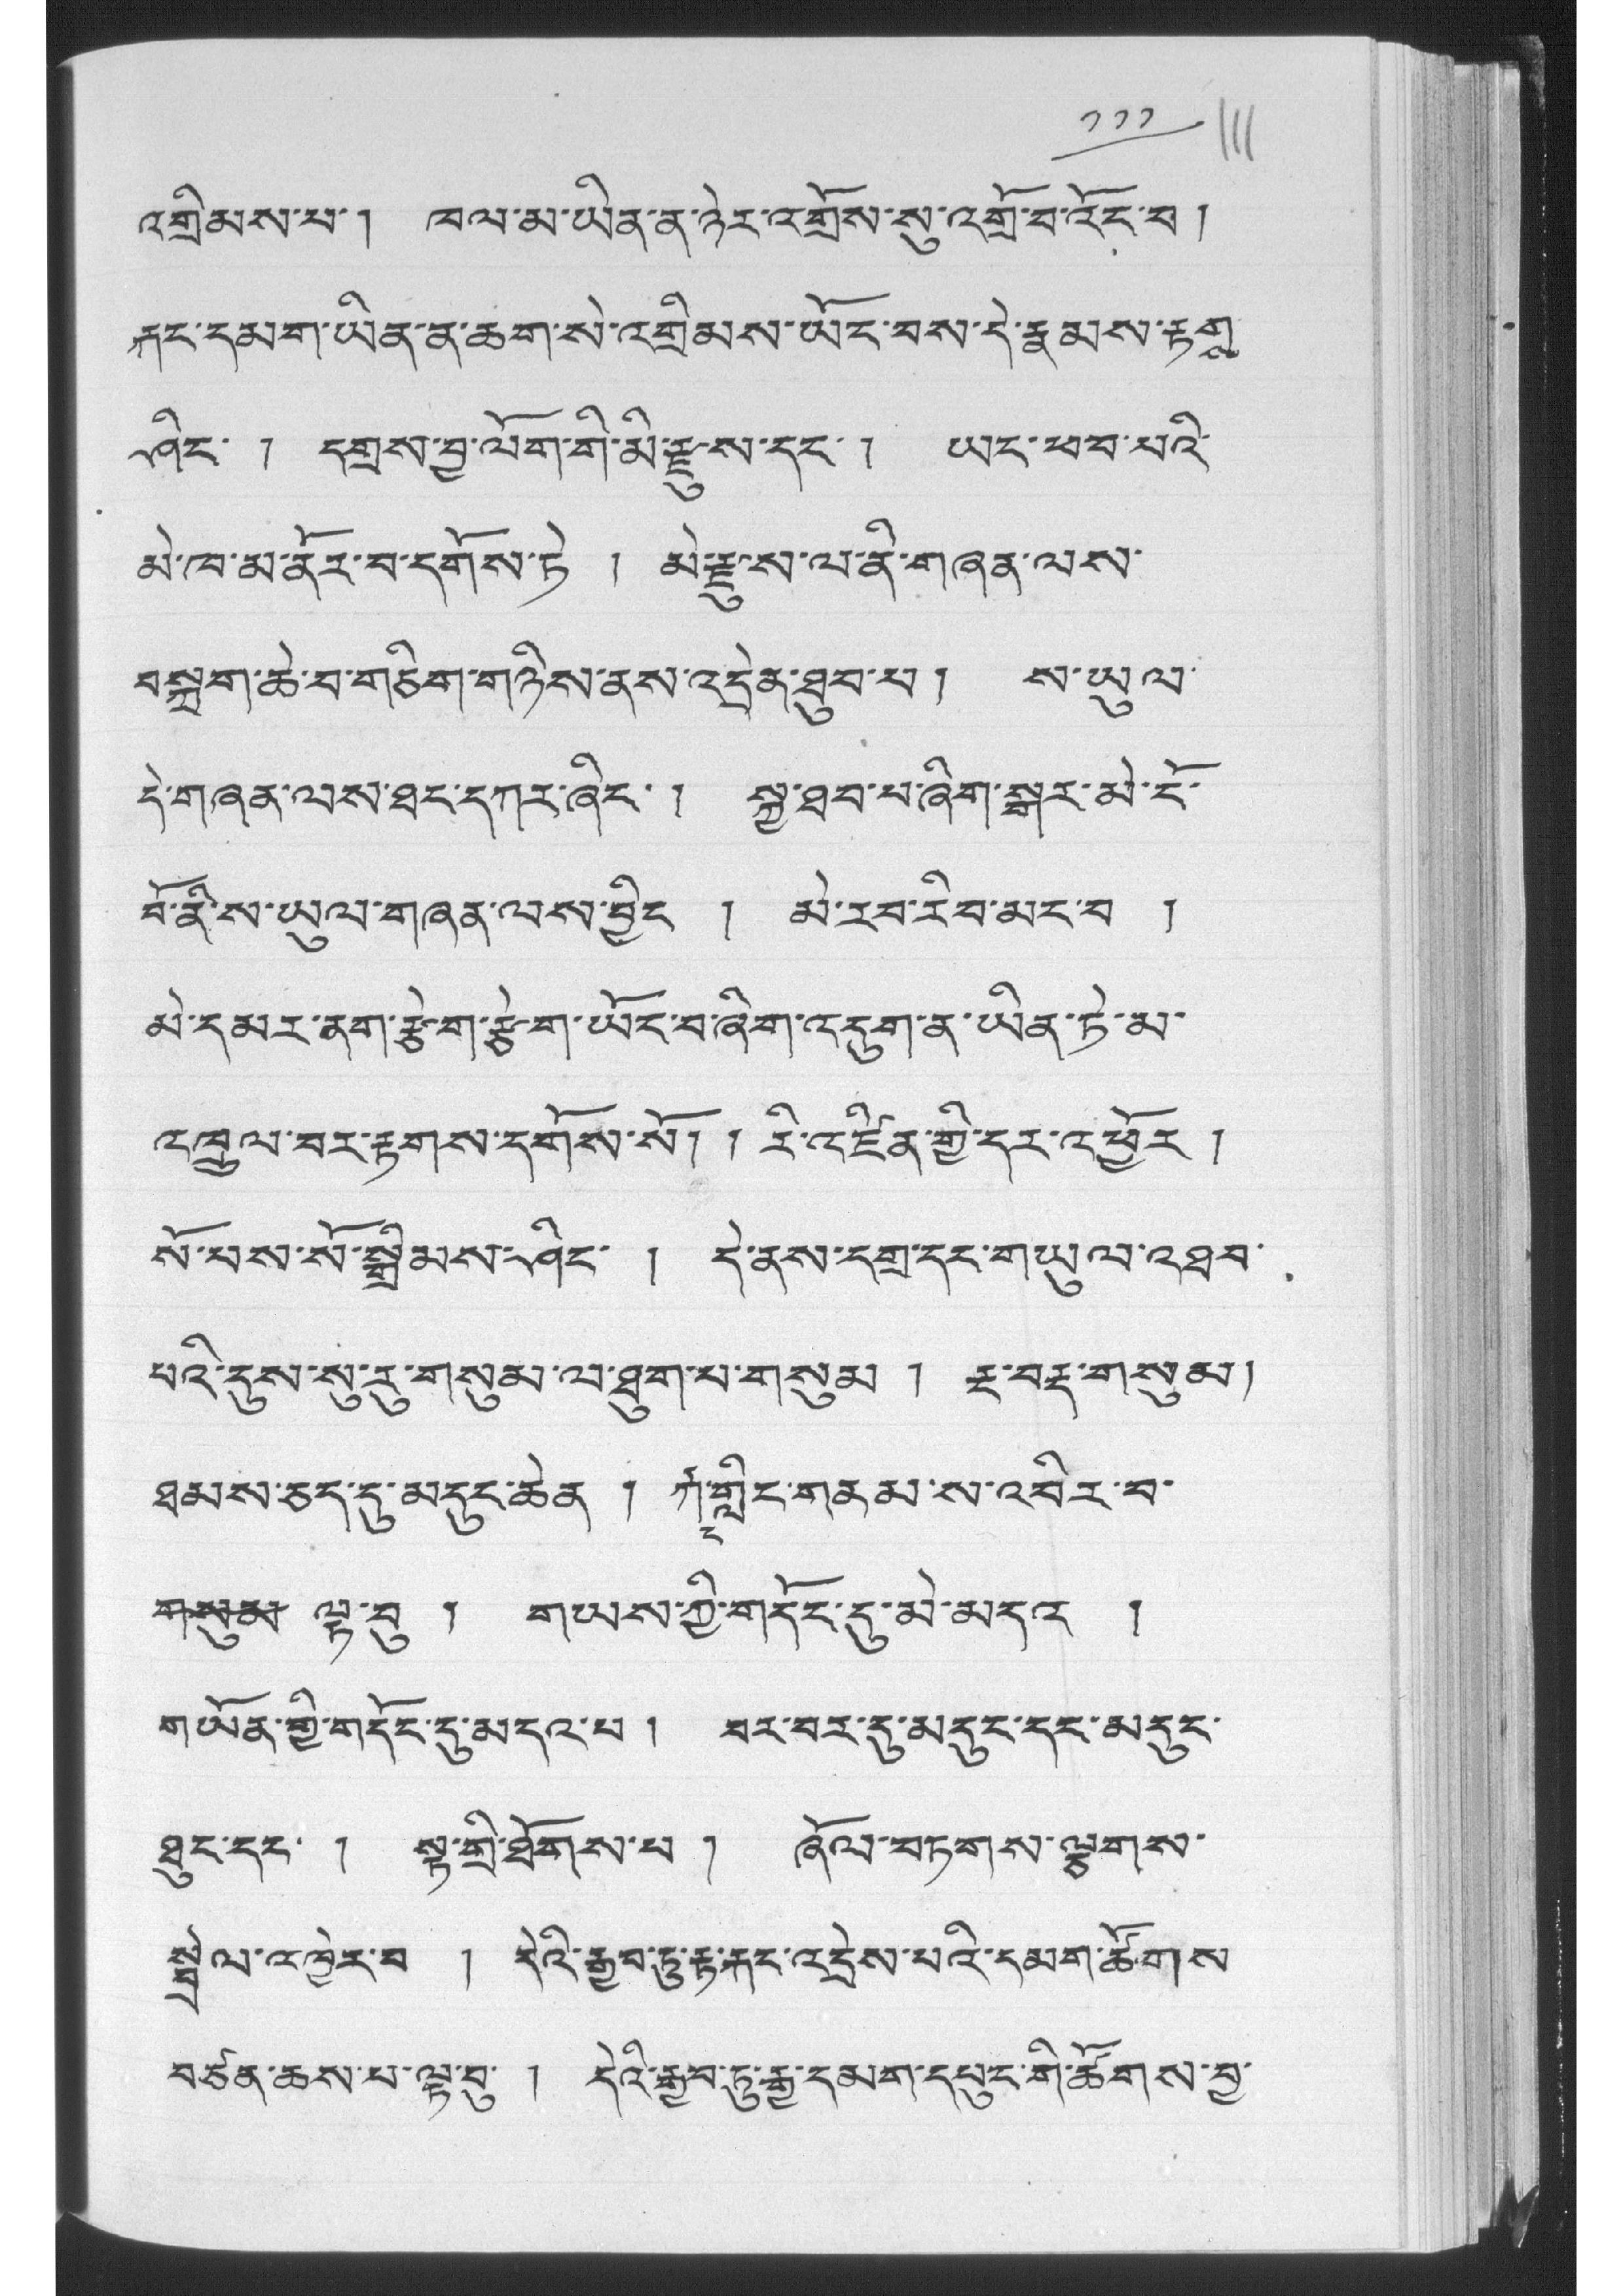༡༡༡
འགྲིམས་པ་། ཁལ་མ་ཡིན་ན་ཉེར་འགྲོས་སུ་འགྲོ་བ་འོར་བ །
རྐང་དམག་ཡིན་ན་ཆག་སེ་འགྲིམས་ཡོང་བས་དེ་རྣམས་རྟགས་
ཤིང་ ། དགྲས་བྱ་ལོག་གི་མི་རྫུས་དང་། ཡང་ཕབ་པའི་
མེ་ཁ་མནོར་བ་དགོས་ཏེ ། མེ་རྫུས་ལ་ནི་གཞན་ལས་
བསྐྲག་ཆེ་བ་གཅིག་གཉིས་ནས་འདྲེན་ཐུབ་པ། ས་ཡུལ་
དེ་གཞན་ལས་ཐང་དཀར་ཞིང་། སྐྱ་ཐབ་པ་ཞིག་སྒར་མེ་ངོ་
བོ་ནི་ས་ཡུལ་གཞན་ལས་བྱིད ། མེ་རབ་རིབ་མང་བ །
མི་དམར་ནག་རྩེག་རྩེག་ཡོང་བ་ཞིག་འདུག་ན་ཡིན་ཏེ་མ་
འཁྲུལ་བར་རྟགས་དགོས་སོ། ། རི་འཛིན་གྱི་དར་འཕྱོར །
སོ་མས་སོ་སྒྲིམས་ཤིང་ ། དེ་ནས་དགྲ་དང་གཡུལ་འཐབ་
པའི་དུས་སུ་རུ་གསུམ་ལ་ཐུག་པ་གསུམ ། རྔ་བརྡ་གསུམ།
ཐམས་ཅད་དུ་མདུད་ཆེན ། རྐང་གླིང་གནམ་ས་འབིར་བ་
གསུམ་ ལྟ་བུ ། གཡས་ཀྱི་གདོང་དུ་མེ་མདའ །
གཡོན་གྱི་གདོང་དུ་མདའ་པ ། བར་བར་དུ་མདུང་དང་མདུང་
ཐུང་དང་ ། སྟ་གྲི་ཐོགས་པ ། ཞོལ་བཏགས་ལྕགས་
སྦྲེལ་འཁྱེར་བ ། དེའི་རྒྱབ་ཏུ་རྟ་རྐང་འདྲེས་པའི་དམག་ཚོགས་
བཙན་ཆོས་པ་ལྟ་བུ་ ། དེའི་རྒྱབ་ཏུ་རྒྱ་དམག་དཔུང་གི་ཚོགས་བྱ་
